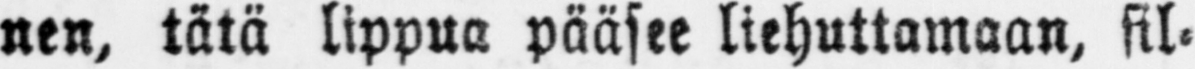nen, tätä lippua pääsee liehuttamaan, sil-
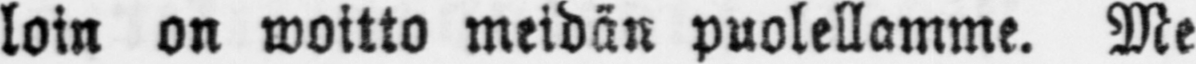loin on woitto meidän puolellamme. Me
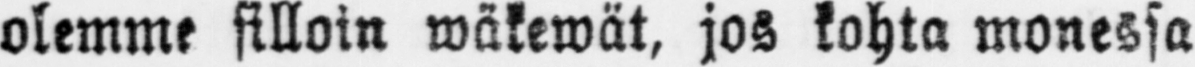olemme silloin wäkewät, jos kohta monessa
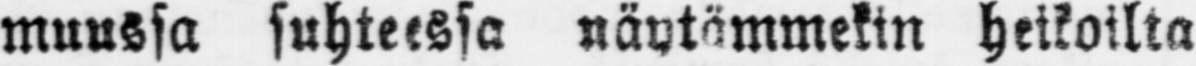muussa suhteessa näytämmekin heikoilta
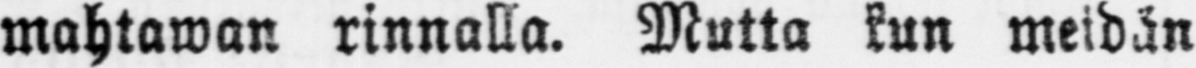mahtawan rinnalla. Mutta kun meidän
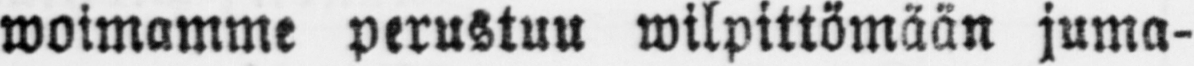woimamme perustuu wilpittömään juma-
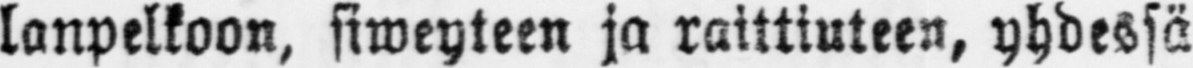lanpelkoon, siweyteen ja raittiuteen, yhdessä
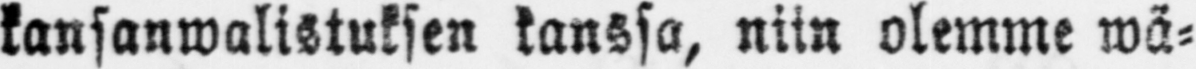kansanwalistuksen kanssa, niin olemme wä-
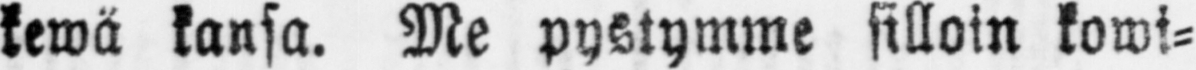kewä kansa. Me pystymme silloin kowi-
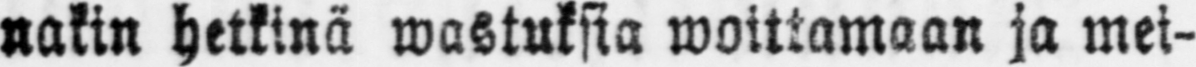nakin hetkinä wastuksia woittamaan ja mei-
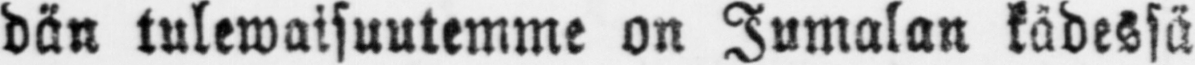dän tulewaisuutemme on Jumalan kädessä
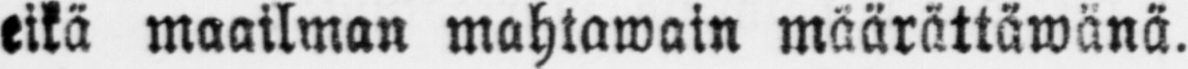eikä maailman mahtawain määrättäwänä.
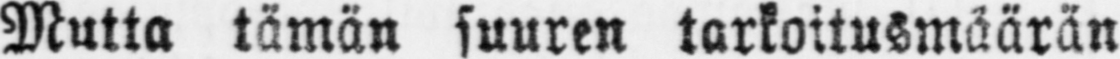Mutta tämän suuren tarkoitusmäärän
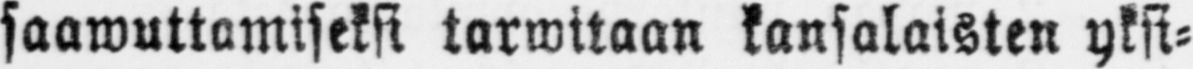saawuttamiseksi tarwitaan kansalaisten yksi-
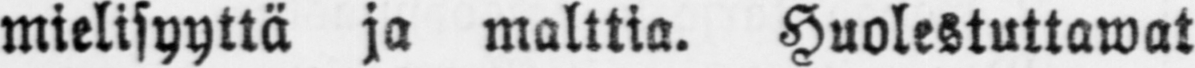mielisyyttä ja malttia. Huolestuttawat
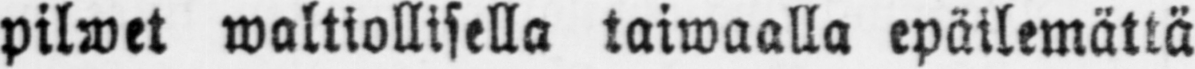pilwet waltiollisella taiwaalla epäilemättä
